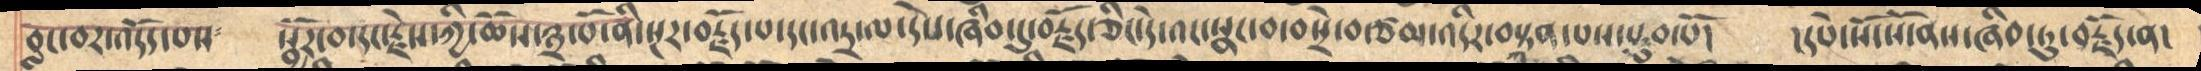བླང་བར་འདོད་པས༴       སྦྱོར་བ་དང་རྗེས་ཀྱི་ཆོས་༣་པོ་ནི་སྔར་བརྗོད་པ་དང་འདྲ་ལ་དེས་ཞིབ་དུ་བརྗོད་ཅིང་དེ་འང་སྣང་བ་བསྲེ་བ་ཙམ་འདིར་བསྟན་པས་ཐུབ་པོ།   །དཔེ་སོ་སོ་ནས་ཞིབ་ཏུ་བརྗོད་ན་
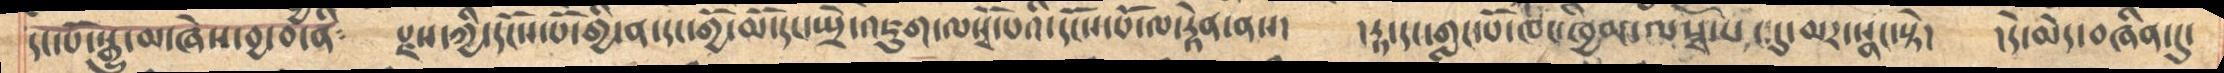དང་པོ་སྒྱུ་མ་ཞེས་བྱ་བ་ནི༴      རྗས་ཀྱི་དངོས་པོ་གྱི་ན་དང་གྱོ་་མོ་དང་སྤྲེ་འཇུག་ལསྭོ་པའི་དངོས་པོ་ལ་རྟེན་ནས།    །རྟ་དང་གླང་པོ་ཁང་ཁྱིམ་ལསྭོ་པ་དུ་མར་སྣང་སྟེ།     །དེ་མེད་བཞིན་དུ་
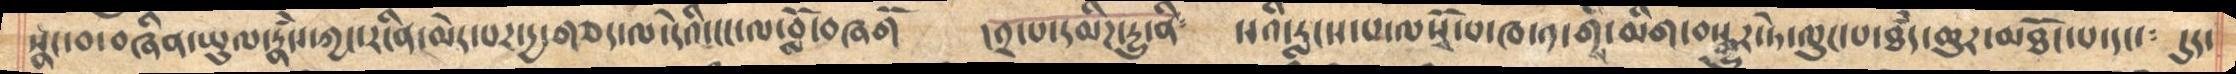སྣང་བ་བཞིན་ཡུལ་རྣཾས་ཀྱང་རངིན་མེད་པར་དྱ་གཅད་ལ་དེའི་ངང་ལ་བློ་བཞགོ     ་༢་པ་དམིཌ་དྱུ་ནི༴  སའི་རླངས་པ་ལསྭོ་པ་ཁ་༡་གིས་མིག་བསྒྱུར་ཏེ་ལུང་པ་ཐཾད་ཚུར་མཐོང་པ་དང་༴  དུར་
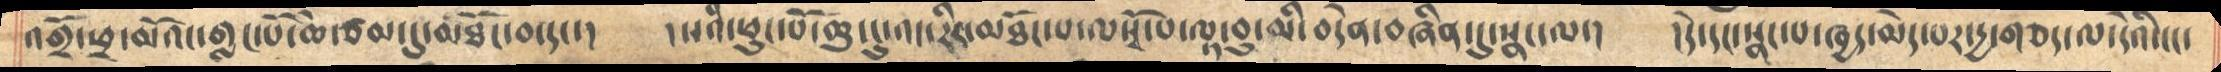འགྲོ་ཕྲ་མོའང་གླང་པོ་ཆེ་ཙམ་དུ་མཐོང་བ་དང་།    །སའི་ཕུང་པོ་ཆུང་ངུ་འང་རིར་མཐོང་པ་ལསྭོ་པ་ལྡ་བུ་མི་བདེན་བཞིན་དུ་སྣང་ལ་།   །དེ་དང་སྣང་བ་ཁྱད་མེད་པར་དྱ་གཅད་ལ་དེའི་ངང་
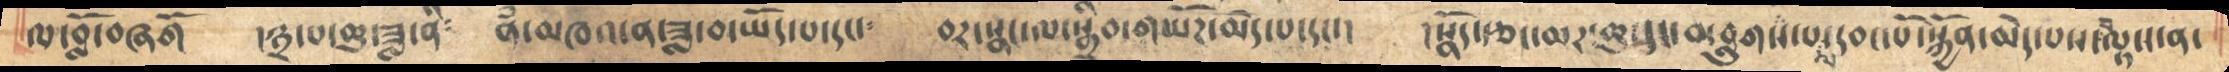ལ་བློ་བཞགོ   །༢་པ་ཆུ་ཟླ་ནི༴    ནཾ་མཁའ་ན་ཟླ་བ་ཡོད་པ་དང་༴  བར་སྣང་ལ་སྒྲིབ་གཡོཌ་མེད་པ་དང་།  །སྣོད་རྩ་ཆཌ་ཆུ་དང་བ་བླུགས་པ་ལ་དབང་པོ་སྐྱོན་མེད་པས་བལྟས་ན་
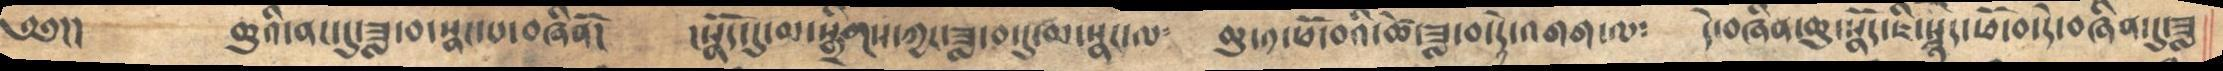༄༅།།    ཆུའི་ནང་དུ་ཟླ་བ་སྣང་བ་བཞིནོ།     །སྣོད་དུ་མ་སྒྲིགས་ཀྱང་ཟླ་བ་དུ་མ་སྣང་ལ༴     ཆུ་༡་ཕོ་བའི་ཚེ་ཟླ་བ་དེ་འགག་ལ༴   དེ་བཞིན་ཆུ་སྣོད་ཇི་སྙེད་ཕོ་བ་དེ་བཞིན་དུ་ཟླ
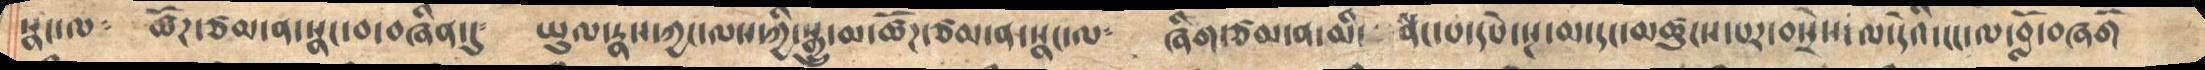སྣང་ལ༴   ཚོཌ་ཙམ་ན་སྣང་བ་བཞིན་དུ༴  ཡུལ་རྣས་ཀྱང་ལས་ཀྱི་སྒྱུ་མ་ཚོཌ་ཙམ་ན་སྣང་ལ༴  ཞིག་ཙམ་ན་མི་སྣང་པ་དཔེ་སྔ་མ་དང་མཚུངས་པར་བསྲེས་ལ་དེའི་ངང་ལ་བློ་བཞགོ
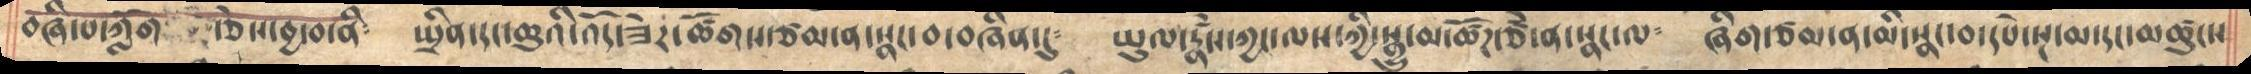བཞི་པ་ཀློག་ཅེས་བྱ་བ་ནི༴    སྤྲིན་དང་ཆུའི་འོད་ཟེར་ཚོགས་ཙམ་ན་སྣང་བ་བཞིན་དུ༴    ཡུལ་རྣཾས་ཀྱང་ལས་ཀྱི་སྒྱུ་མ་ཚོཌ་ཙཾ་ན་སྣང་ལ༴   ཞིག་ཙམ་ན་མི་སྣང་བ་དེས་སྔ་མ་དང་མཚུངས
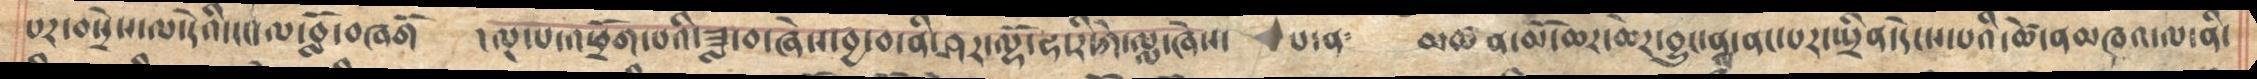པར་བསྲེས་ལ་དེའི་ངང་ལ་བློ་བཞགོ     །ལྔ་པ་འཕྲོག་པའི་ཟླ་བ་ཞེས་བྱ་བ་ནི་ཤར་ལྷོ་ཧ་རི་ཀེ་ལླ་ཞེས་  པ་ན༴  མཚན་མོ་ཆར་ཆེར་བྱུང་ནས་ནང་པར་སྤྲིན་དེངས་པའི་ཚེ་ནམཁའ་ལ་ནི་
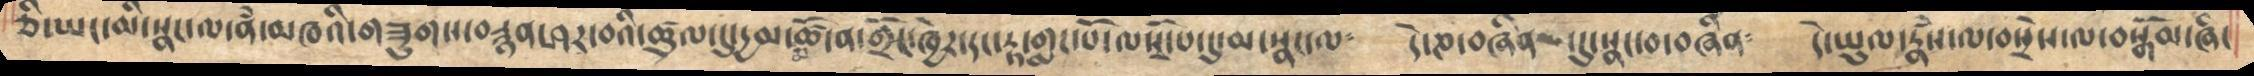ཅི་ཡང་མི་སྣང་ལ་ནཾ་མཁའི་གཟུགས་བརྙན་ཤར་བའི་ཚུལ་དུ་དྱམ་མཚོ་ན་གྲོང་ཁྱེར་དང་རྟ་གླང་པོ་ལསྭོ་པ་དུ་མ་སྣང་ལ༴   དེ་ཎ་བཞིན་དུ་སྣང་བ་བཞིན༴   དེ་ཡུལ་རྣཾས་ལ་བསྲེས་ལ་བསྒོམ་ཞིང
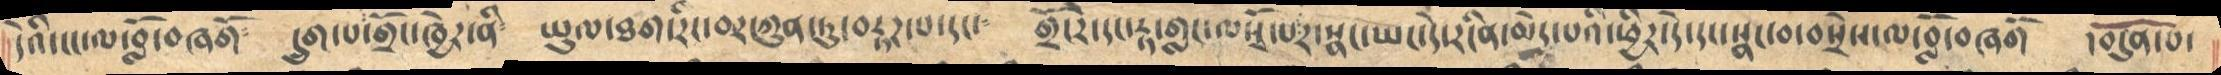དེའི་ངང་ལ་བློ་བཞགོ༴       དྲུག་པ་གྲོང་ཁྱེར་ནི༴       ཡུལ་ཐག་རིང་བར་ཀུན་ཏུ་བརྟཌ་པ་དང་༴       གྲོངེར་དང་རྟ་གླང་ལསྭོ་པར་སྣང་ཡང་དེ་རངིན་མེད་པའི་ཕྱིར་དེ་དང་སྣང་བ་བསྲེས་ལ་བློ་བཞགོ   །བདུན་པ་
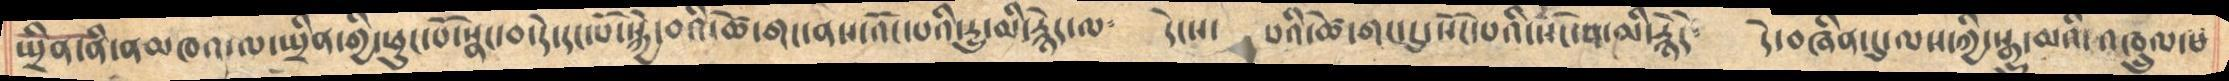སྤྲིན་ནི་ནམཁའ་ལ་སྤྲིན་གྱི་ཕུང་པོ་སྣང་བ་དེ་དང་པོ་སྐྱེ་བའི་ཚེ་གང་ནས་འོང་པའི་དྱུ་མི་རྙེད་ལ༴    དེངས་ པའི་ཚེ་གང་དུ་སོང་པའི་སོང་བ་མི་རྙེདེ༴     དེ་བཞིན་དུ་ལས་ཀྱི་སྒྱུ་མའི་འཁྲུལ་པ
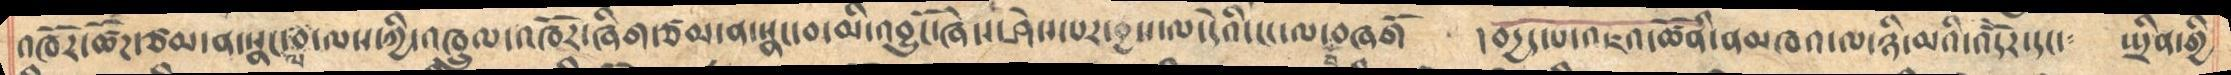འཁོར་ཚོཌ་ཙམ་ན་སྣང་བ་ལ་ལས་ཀྱི་འཁྲུལ་འཁོར་ཞིག་ཙམ་ན་སྣང་བ་མི་འབྱུངོ་ཞེས་ཤེས་པར་བྱས་ལ་དེའི་ངང་ལ་བློ་བཞགོ   །བདྱད་པ་འཇའ་ཚོིན་ནམཁའ་ལ་ཉི་མའི་འོདེར་དང་༴  སྤྲིན་གྱི
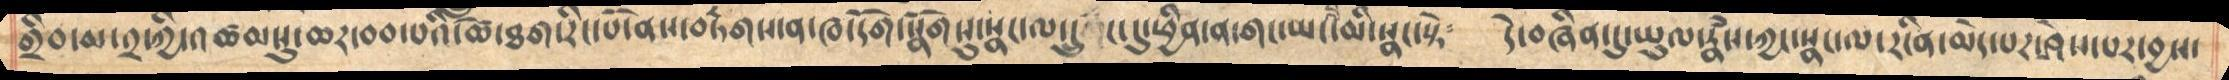གྲིབ་མ་༢་ཀྱི་འཚམསུ་ཆར་བབ་པའི་ཚེ་ཐག་རིང་པོ་ནས་བརྟགས་ན་ཁ་དོག་སྣཚོགསུ་སྣང་ལ་དྲུང་དུ་ཕྱིན་ན་གང་ཡང་མི་སྣང་སྟེ༴     དེ་བཞིན་དུ་ཡུལ་རྣཾས་ཀྱང་སྣང་ལ་རངིན་མེད་པར་ཤེས་པར་བྱས་
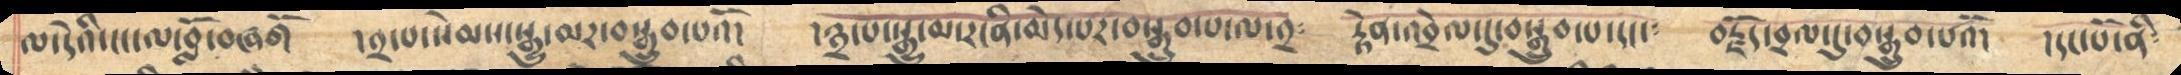ལ་དེའི་ངང་ལ་བློ་བཞགོ      །༢་པ་སེམས་སྒྱུ་མར་བསྒྲུབ་པའོ།    །༣་པ་སྒྱུ་མ་རངིན་མེད་པར་བསྒྲུབ་པ་ལ་༢༴      རྟེན་འབྲེལ་དུ་བསྒྲུབ་པ་དང་༴    བརྗོད་བྲལ་དུ་བསྒྲུབ་པའོ།    །དང་པོ་ནི༴
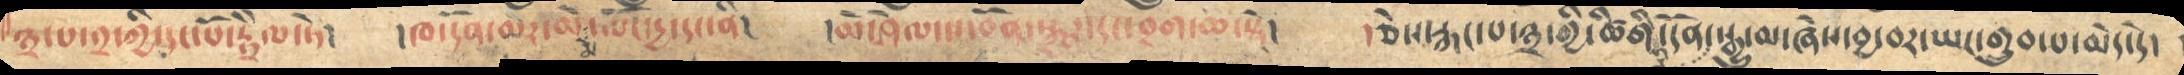༣་པ་༢་ཀྱི་དང་པོ་རྟྲཻལ་ཏེ།    །ཁ་དོག་མར་མེ་མེ་ལོང་དྱ་དང་ནི།   །མེ་ཤེལ་ས་བོན་སྐུར་དདང་བྲག་ཆ་སྟེ།  །ཅེས་རྐང་པ་༣་གྱི་ཚིགི་དོན་ནི་སྒྱུ་མ་ཞེས་བྱ་བར་ཡང་གྲུབ་པ་མེད་དེ།
